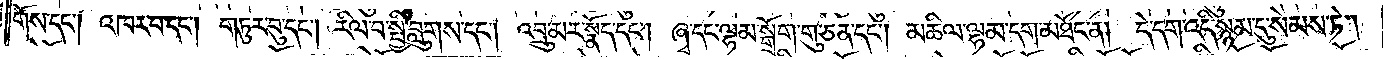གོས་དང༌། འཁར་བ་དང༌། གཏུར་བུ་དང༌། རིལ་བ་སྤྱི་བླུགས་དང༌། འབྲུ་མར་སྣོད་དང༌། ཞྭ་དང་ལྷམ་སྒྲོག་གུ་ཅན་དང༌། མཆིལ་ལྷམ་དག་མཐོང་ན། དེ་དག་འདི་སྙམ་དུ་སེམས་ཏེ།
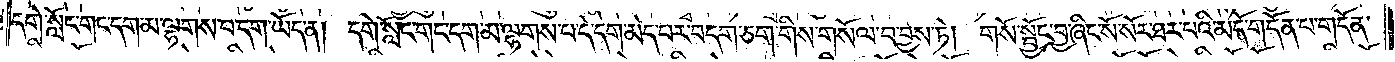དགེ་སློང་གང་དག་མ་ལྷགས་པ་དག་ཡོད་ན། དགེ་སློང་གང་དག་མ་ལྷགས་པ་དེ་དག་མེད་པར་བདག་ཅག་གིས་གསོལ་བ་བྱས་ཏེ། གསོ་སྦྱོང་བྱ་ཞིང་སོ་སོར་ཐར་པའི་མདོ་གདོན་པ་གདོན་
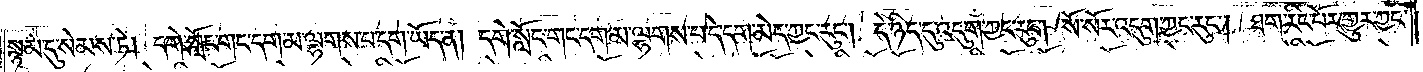སྙམ་དུ་སེམས་ཏེ། དགེ་སློང་གང་དག་མ་ལྷགས་པ་དག་ཡོད་ན། དགེ་སློང་གང་དག་མ་ལྷགས་པ་དེ་དག་མེད་ཀྱང་རུང༌། དེ་ཉིད་དུ་འདུག་ཀྱང་རུང༌། སོ་སོར་འདུག་ཀྱང་རུང༌། ཐག་རིང་པོར་གྱུར་ཀྱང་
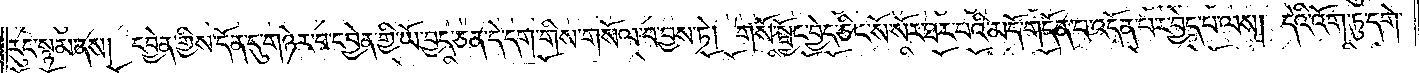རུང་སྙམ་ནས། དབྱེན་གྱིས་དོན་དུ་གཉེར་བ་དབྱེན་གྱི་ཡོ་བྱད་ཅན་དེ་དག་གིས་གསོལ་བ་བྱས་ཏེ། གསོ་སྦྱོང་བྱེད་ཅིང་སོ་སོར་ཐར་པའི་མདོ་གདོན་པ་འདོན་པར་བྱེད་པ་ལས། དེའི་འོག་ཏུ་དགེ་
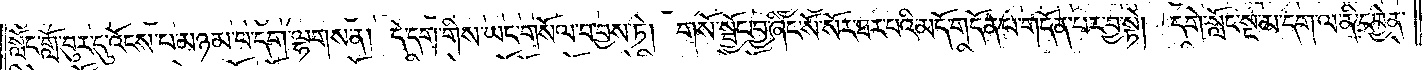སློང་གློ་བུར་དུ་འོངས་པ་མཉམ་པ་དག་ལྷགས་ན། དེ་དག་གིས་ཡང་གསོལ་བ་བྱས་ཏེ། གསོ་སྦྱོང་བྱ་ཞིང་སོ་སོར་ཐར་པའི་མདོ་གདོན་པ་གདོན་པར་བྱ་སྟེ། དགེ་སློང་སྔ་མ་དག་ལ་ནི་དབྱེན་
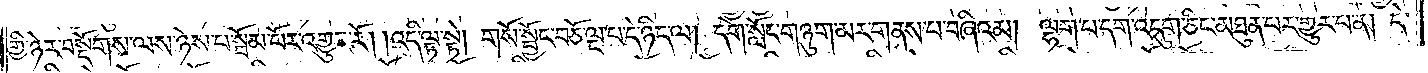གྱི་ཉེར་བསྡོགས་ལས་ཉེས་པ་སྦོམ་པོར་འགྱུར་རོ། །འདི་ལྟ་སྟེ། གསོ་སྦྱོང་བཅོ་ལྔ་པ་དེ་ཉིད་ལ། དགེ་སློང་གཉུག་མར་གནས་པ་བཞིའམ། ལྷག་པ་དག་འདུག་ཅིང་མཐུན་པར་གྱུར་པ་ན། དེ་
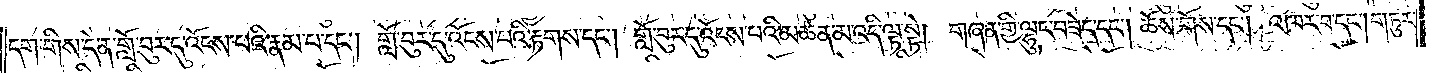དག་གིས་དེ་ན་གློ་བུར་དུ་འོངས་པའི་རྣམ་པ་དང༌། གློ་བུར་དུ་འོངས་པའི་རྟགས་དང༌། གློ་བུར་དུ་འོངས་པའི་མཚན་མ་འདི་ལྟ་སྟེ། གཞན་གྱི་ལྷུང་བཟེད་དང༌། ཆོས་གོས་དང༌། འཁར་བ་དང༌། གཏུར་
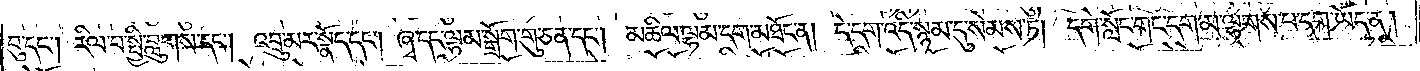བུ་དང༌། རིལ་བ་སྤྱི་བླུགས་དང༌། འབྲུ་མར་སྣོད་དང༌། ཞྭ་དང་ལྷམ་སྒྲོག་གུ་ཅན་དང༌། མཆིལ་ལྷམ་དག་མཐོང་ན། དེ་དག་འདི་སྙམ་དུ་སེམས་ཏེ། དགེ་སློང་གང་དག་མ་ལྷགས་པ་དག་ཡོད་ན།
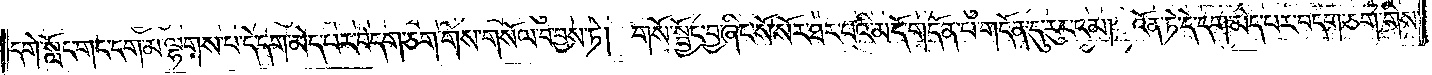དགེ་སློང་གང་དག་མ་ལྷགས་པ་དེ་དག་མེད་པར་བདག་ཅག་གིས་གསོལ་བ་བྱས་ཏེ། གསོ་སྦྱོང་བྱ་ཞིང་སོ་སོར་ཐར་པའི་མདོ་གདོན་པ་གདོན་དུ་རུང་ངམ། འོན་ཏེ་དེ་དག་མེད་པར་བདག་ཅག་གིས་
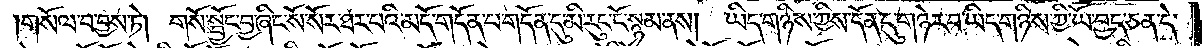།གསོལ་བ་བྱས་ཏེ། གསོ་སྦྱོང་བྱ་ཞིང་སོ་སོར་ཐར་པའི་མདོ་གདོན་པ་གདོན་དུ་མི་རུང་ངོ་སྙམ་ནས། ཡིད་གཉིས་ཀྱིས་དོན་དུ་གཉེར་བ་ཡིད་གཉིས་ཀྱི་ཡོ་བྱད་ཅན་དེ་
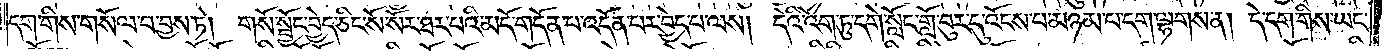དག་གིས་གསོལ་བ་བྱས་ཏེ། གསོ་སྦྱོང་བྱེད་ཅིང་སོ་སོར་ཐར་པའི་མདོ་གདོན་པ་འདོན་པར་བྱེད་པ་ལས། དེའི་འོག་ཏུ་དགེ་སློང་གློ་བུར་དུ་འོངས་པ་མཉམ་པ་དག་ལྷགས་ན། དེ་དག་གིས་ཡང་
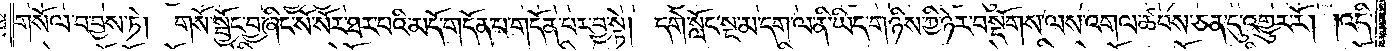གསོལ་བ་བྱས་ཏེ། གསོ་སྦྱོང་བྱ་ཞིང་སོ་སོར་ཐར་པའི་མདོ་གདོན་པ་གདོན་པར་བྱ་སྟེ། དགེ་སློང་སྔ་མ་དག་ལ་ནི་ཡིད་གཉིས་ཀྱི་ཉེར་བསྡོགས་ལས་འགལ་ཚབས་ཅན་དུ་འགྱུར་རོ། །འདི་
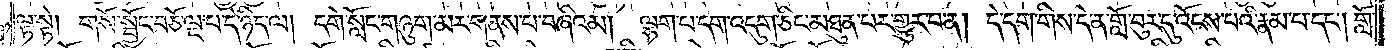ལྟ་སྟེ། གསོ་སྦྱོང་བཅོ་ལྔ་པ་དེ་ཉིད་ལ། དགེ་སློང་གཉུག་མར་གནས་པ་བཞིའམ། ལྷག་པ་དག་འདུག་ཅིང་མཐུན་པར་གྱུར་བ་ན། དེ་དག་གིས་དེ་ན་གློ་བུར་དུ་འོངས་པའི་རྣམ་པ་དང༌། གློ་
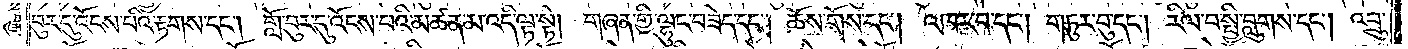བུར་དུ་འོངས་པའི་རྟགས་དང༌། གློ་བུར་དུ་འོངས་པའི་མཚན་མ་འདི་ལྟ་སྟེ། གཞན་གྱི་ལྷུང་བཟེད་དང༌། ཆོས་གོས་དང༌། འཁར་བ་དང༌། གཏུར་བུ་དང༌། རིལ་བ་སྤྱི་བླུགས་དང༌། འབྲུ་
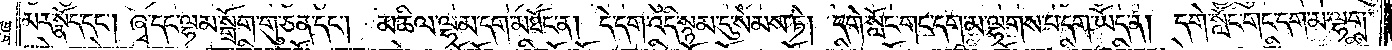མར་སྣོད་དང༌། ཞྭ་དང་ལྷམ་སྒྲོག་གུ་ཅན་དང༌། མཆིལ་ལྷམ་དག་མཐོང་ན། དེ་དག་འདི་སྙམ་དུ་སེམས་ཏེ། དགེ་སློང་གང་དག་མ་ལྷགས་པ་དག་ཡོད་ན། དགེ་སློང་གང་དག་མ་ལྷགས་
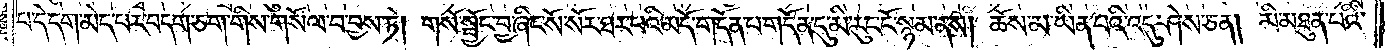པ་དེ་དག་མེད་པར་བདག་ཅག་གིས་གསོལ་བ་བྱས་ཏེ། གསོ་སྦྱོང་བྱ་ཞིང་སོ་སོར་ཐར་པའི་མདོ་གདོན་པ་གདོན་དུ་མི་རུང་ངོ་སྙམ་ནས། ཆོས་མ་ཡིན་པའི་འདུ་ཤེས་ཅན། མི་མཐུན་པའི་
